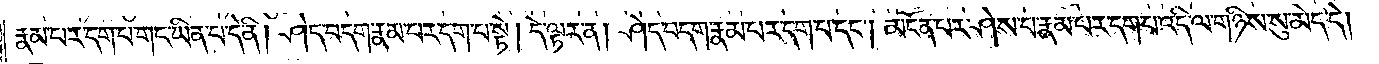རྣམ་པར་དག་པ་གང་ཡིན་པ་དེ་ནི། ཤེད་བདག་རྣམ་པར་དག་པ་སྟེ། དེ་ལྟར་ན། ཤེད་བདག་རྣམ་པར་དག་པ་དང༌། མངོན་པར་ཤེས་པ་རྣམ་པར་དག་པ་འདི་ལ་གཉིས་སུ་མེད་དེ།
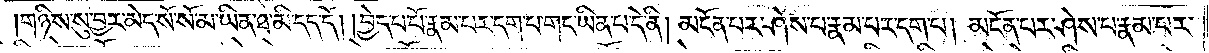གཉིས་སུ་བྱར་མེད་སོ་སོ་མ་ཡིན་ཐ་མི་དད་དོ། །བྱེད་པ་པོ་རྣམ་པར་དག་པ་གང་ཡིན་པ་དེ་ནི། མངོན་པར་ཤེས་པ་རྣམ་པར་དག་པ། མངོན་པར་ཤེས་པ་རྣམ་པར་
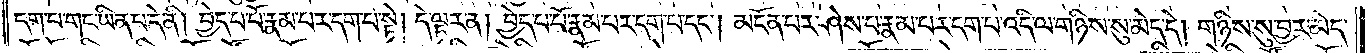དག་པ་གང་ཡིན་པ་དེ་ནི། བྱེད་པ་པོ་རྣམ་པར་དག་པ་སྟེ། དེ་ལྟར་ན། བྱེད་པ་པོ་རྣམ་པར་དག་པ་དང༌། མངོན་པར་ཤེས་པ་རྣམ་པར་དག་པ་འདི་ལ་གཉིས་སུ་མེད་དེ། གཉིས་སུ་བྱར་མེད་
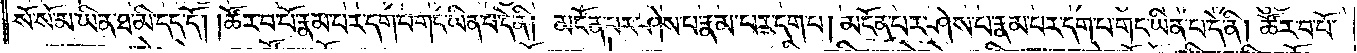སོ་སོ་མ་ཡིན་ཐ་མི་དད་དོ། །ཚོར་བ་པོ་རྣམ་པར་དག་པ་གང་ཡིན་པ་དེ་ནི། མངོན་པར་ཤེས་པ་རྣམ་པར་དག་པ། མངོན་པར་ཤེས་པ་རྣམ་པར་དག་པ་གང་ཡིན་པ་དེ་ནི། ཚོར་བ་པོ་
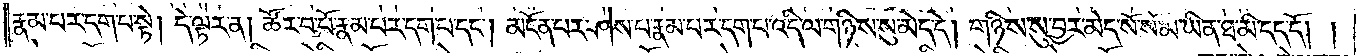རྣམ་པར་དག་པ་སྟེ། དེ་ལྟར་ན། ཚོར་བ་པོ་རྣམ་པར་དག་པ་དང༌། མངོན་པར་ཤེས་པ་རྣམ་པར་དག་པ་འདི་ལ་གཉིས་སུ་མེད་དེ། གཉིས་སུ་བྱར་མེད་སོ་སོ་མ་ཡིན་ཐ་མི་དད་དོ། །
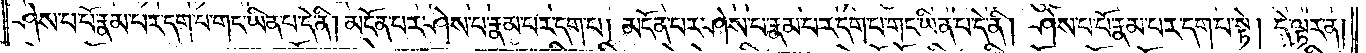ཤེས་པ་པོ་རྣམ་པར་དག་པ་གང་ཡིན་པ་དེ་ནི། མངོན་པར་ཤེས་པ་རྣམ་པར་དག་པ། མངོན་པར་ཤེས་པ་རྣམ་པར་དག་པ་གང་ཡིན་པ་དེ་ནི། ཤེས་པ་པོ་རྣམ་པར་དག་པ་སྟེ། དེ་ལྟར་ན།
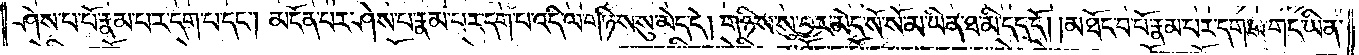ཤེས་པ་པོ་རྣམ་པར་དག་པ་དང༌། མངོན་པར་ཤེས་པ་རྣམ་པར་དག་པ་འདི་ལ་གཉིས་སུ་མེད་དེ། གཉིས་སུ་བྱར་མེད་སོ་སོ་མ་ཡིན་ཐ་མི་དད་དོ། །མཐོང་བ་པོ་རྣམ་པར་དག་པ་གང་ཡིན་
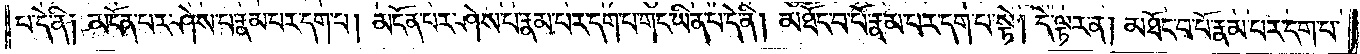པ་དེ་ནི། མངོན་པར་ཤེས་པ་རྣམ་པར་དག་པ། མངོན་པར་ཤེས་པ་རྣམ་པར་དག་པ་གང་ཡིན་པ་དེ་ནི། མཐོང་བ་པོ་རྣམ་པར་དག་པ་སྟེ། དེ་ལྟར་ན། མཐོང་བ་པོ་རྣམ་པར་དག་པ་
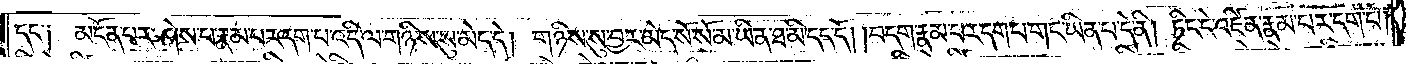དང༌། མངོན་པར་ཤེས་པ་རྣམ་པར་དག་པ་འདི་ལ་གཉིས་སུ་མེད་དེ། གཉིས་སུ་བྱར་མེད་སོ་སོ་མ་ཡིན་ཐ་མི་དད་དོ། །བདག་རྣམ་པར་དག་པ་གང་ཡིན་པ་དེ་ནི། ཏིང་ངེ་འཛིན་རྣམ་པར་དག་པ།
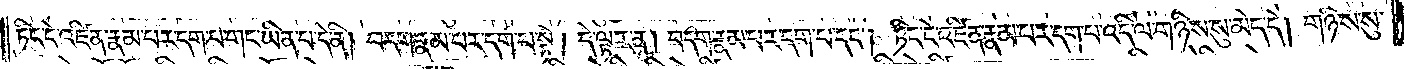ཏིང་ངེ་འཛིན་རྣམ་པར་དག་པ་གང་ཡིན་པ་དེ་ནི། བདག་རྣམ་པར་དག་པ་སྟེ། དེ་ལྟར་ན། བདག་རྣམ་པར་དག་པ་དང༌། ཏིང་ངེ་འཛིན་རྣམ་པར་དག་པ་འདི་ལ་གཉིས་སུ་མེད་དེ། གཉིས་སུ་
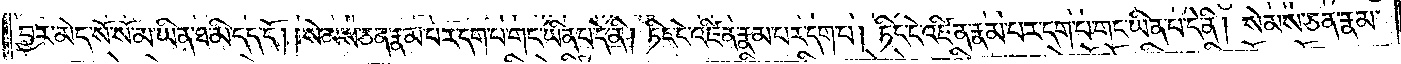བྱར་མེད་སོ་སོ་མ་ཡིན་ཐ་མི་དད་དོ། །སེམས་ཅན་རྣམ་པར་དག་པ་གང་ཡིན་པ་དེ་ནི། ཏིང་ངེ་འཛིན་རྣམ་པར་དག་པ། ཏིང་ངེ་འཛིན་རྣམ་པར་དག་པ་གང་ཡིན་པ་དེ་ནི། སེམས་ཅན་རྣམ་
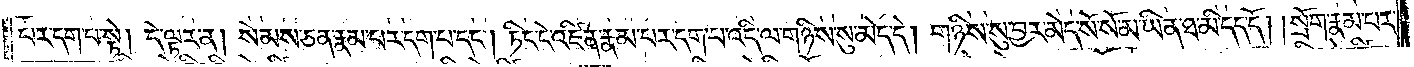པར་དག་པ་སྟེ། དེ་ལྟར་ན། སེམས་ཅན་རྣམ་པར་དག་པ་དང༌། ཏིང་ངེ་འཛིན་རྣམ་པར་དག་པ་འདི་ལ་གཉིས་སུ་མེད་དེ། གཉིས་སུ་བྱར་མེད་སོ་སོ་མ་ཡིན་ཐ་མི་དད་དོ། །སྲོག་རྣམ་པར་
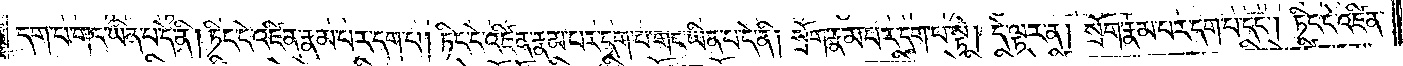དག་པ་གང་ཡིན་པ་དེ་ནི། ཏིང་ངེ་འཛིན་རྣམ་པར་དག་པ། ཏིང་ངེ་འཛིན་རྣམ་པར་དག་པ་གང་ཡིན་པ་དེ་ནི། སྲོག་རྣམ་པར་དག་པ་སྟེ། དེ་ལྟར་ན། སྲོག་རྣམ་པར་དག་པ་དང༌། ཏིང་ངེ་འཛིན་
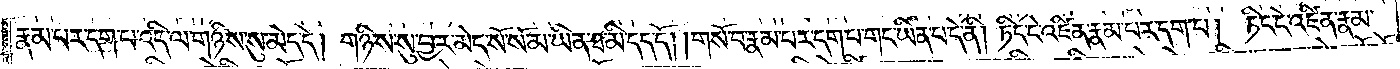རྣམ་པར་དག་པ་འདི་ལ་གཉིས་སུ་མེད་དེ། གཉིས་སུ་བྱར་མེད་སོ་སོ་མ་ཡིན་ཐ་མི་དད་དོ། །གསོ་བ་རྣམ་པར་དག་པ་གང་ཡིན་པ་དེ་ནི། ཏིང་ངེ་འཛིན་རྣམ་པར་དག་པ། ཏིང་ངེ་འཛིན་རྣམ་
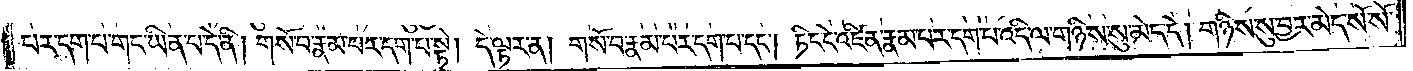པར་དག་པ་གང་ཡིན་པ་དེ་ནི། གསོ་བ་རྣམ་པར་དག་པ་སྟེ། དེ་ལྟར་ན། གསོ་བ་རྣམ་པར་དག་པ་དང༌། ཏིང་ངེ་འཛིན་རྣམ་པར་དག་པ་འདི་ལ་གཉིས་སུ་མེད་དེ། གཉིས་སུ་བྱར་མེད་སོ་སོ་
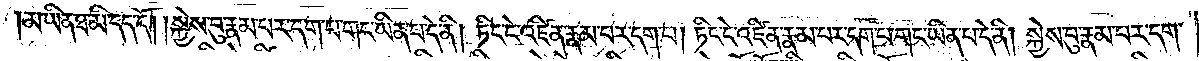མ་ཡིན་ཐ་མི་དད་དོ། །སྐྱེས་བུ་རྣམ་པར་དག་པ་གང་ཡིན་པ་དེ་ནི། ཏིང་ངེ་འཛིན་རྣམ་པར་དག་པ། ཏིང་ངེ་འཛིན་རྣམ་པར་དག་པ་གང་ཡིན་པ་དེ་ནི། སྐྱེས་བུ་རྣམ་པར་དག་
